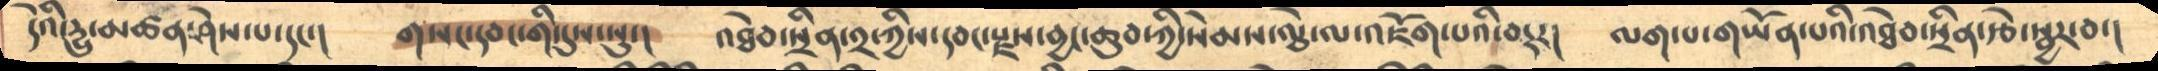དེའི་དྱུ་མཚན་ཤེས་པ་དང་།     གསང་དབང་གི་དུས་སུ་།    འཐེབ་སྲིན་༢་ཀྱིས་དབང་རྫས་བྱང་ཆུབ་ཀྱི་སེམས་ལྕེ་ལ་འཇོག་པའི་བརྡར།   ལག་པ་གཡོན་པའི་འཐེབ་སྲིན་རྩེ་སྦྱར་བ་།
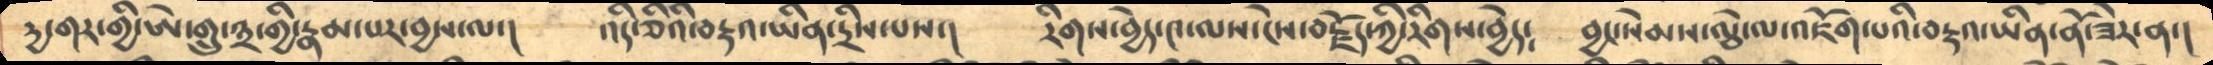དྱ་གར་གྱི་ཨེ་གྲུ་༣་གྱི་རྣམ་པར་བྱས་ལ་།    འདི་ཅིའི་བརྡའ་ཡིན་དྲིས་པས་།   རིགས་བྱེད་༤་ལས་ངེས་བརྗོད་ཀྱི་རིགས་བྱེད༴  བྱང་སེམས་ལྕེ་ལ་འཇོག་པའི་བརྡའ་ཡིན་ནོ་ཟེར་ན་།
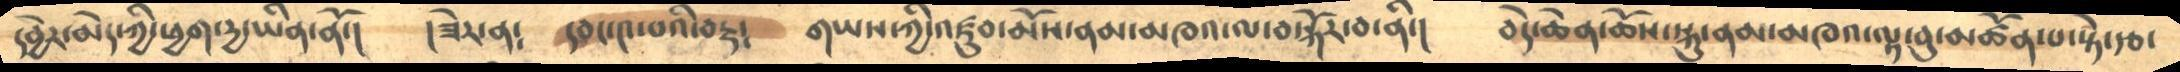དབྱེར་མེད་ཀྱི་ཕྱག་དྱ་ཡིན་ནོ་།    །ཟེར་ན༴   དབང་༤་པའི་བརྡ༴   གཡས་ཀྱི་འཛུབ་མོས་ནམ་མཁའ་ལ་བསྐོར་བ་ནི་།    བདེ་ཆེན་ཆོས་སྐུ་ནམ་མཁའ་ལྟ་བུ་མཚོན་པ་སྟེ་རྩ་
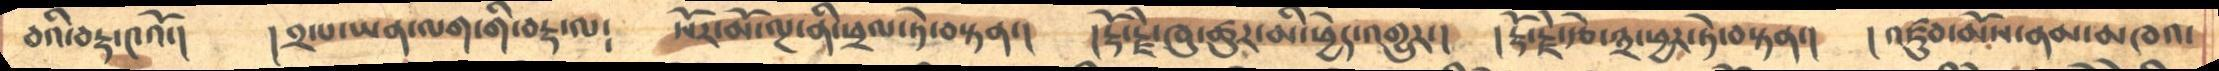བའི་བརྡ་༤འོ་།   །༢་པ་ཡན་ལག་གི་བརྡ་ལ༴   སོར་མོ་ལྔ་ནི་ཕྲལ་ཏེ་བསྟན་།    །རྡོ་རྗེ་ཁུ་ཚུར་མི་ཕྱེད་འགྱུར་།   །རྡོ་རྗེ་རྩེ་༣་ཕྱར་ཏེ་བསྟན་།    །འཛུབ་མོས་ནམ་མཁའ་
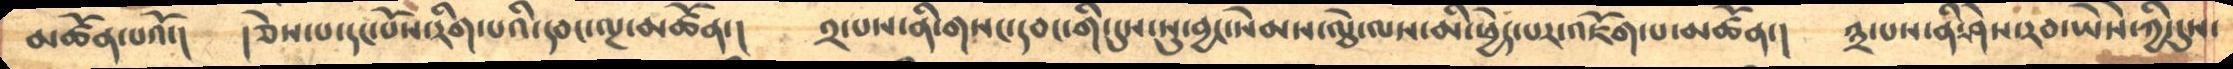མཚོན་པའོ་།   །ཅེས་པ་དང་པོས་རིག་པའི་དབང་ལྔ་མཚོན་།    ༢་པས་ནི་གསང་དབང་གི་དུས་སུ་བྱང་སེམས་ལྕེ་ལས་མི་ཕྱེད་པར་འཇུག་པ་མཚོན་།  ༣་པས་ནི་ཤེས་རབ་ཡཻས་ཀྱི་དུས་
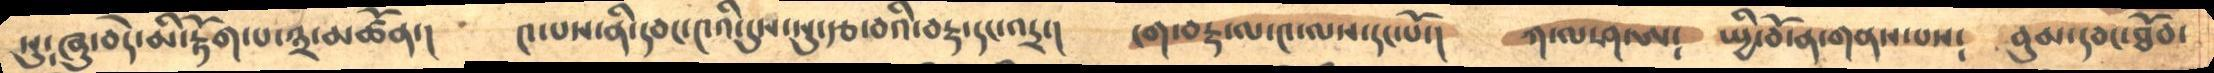སུ་ཞུ་བདེ་མི་རྟོག་པ་༣་མཚོན་།    ༤་པས་ནི་དབང་༤འི་དུས་སུ་རྩ་བའི་བརྡ་དང་འདྲ་།   ངག་བརྡ་ལ་༤་ལས་དང་པོ་།   ཀ་ལ་ཤ་ཨ༴   སྤྱི་བོ་ན་གནས་པས༴   བུམ་དབང་ཐོབ་
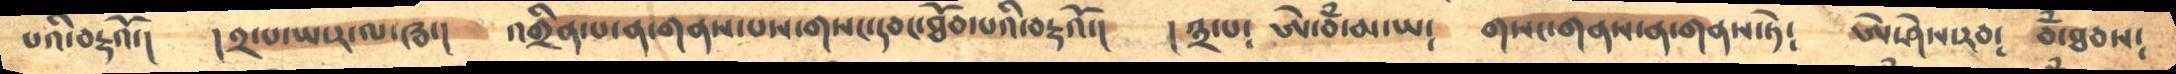པའི་བརྡའོ་།     །༢་པ་ཡ་ར་ལ་ཝ་།   འགྲིན་པ་ན་གནས་པས་གསང་དབང་ཐོབ་པའི་བརྡའོ་།    །༣་པ༴  ཨེ་བཾ་མ་ཡ༴  གསང་གནས་ན་གནས་ཏེ༴   ཨེ་ཤེས་རབ༴  བཾ་ཐབས༴
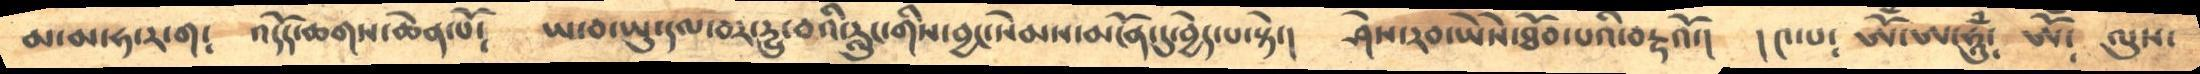མ་མ་ཧ་ར་ག༴   འདོད་ཆགས་ཆེན་པོ༴   ཡ་བ་ཡུ་དལ་བར་དྱུ་བའི་རླུང་གིས་བྱང་སེམས་མངོན་དུ་བྱེད་པ་སྟེ་།   ཤེས་རབ་ཡཻས་ཐོབ་པའི་བརྡའོ་།   །༤་པ༴  ཨོཾ་ཨ་ཧཱུཾ༴  ཨོཾ༴  ལུས་
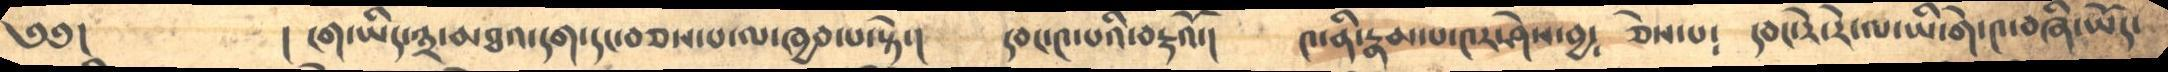༄༅།           ། ངག་ཡིད་༣་མཐའ་དག་དང་བཅས་པ་ལ་ཁྱབ་པ་སྟེ་།    དབང་༤་པའི་བརྡའོ་།   ༤་ནི་རྣམ་པ་༤ར་ཤེས་བྱ༴  ཅེས་པ༴  དབང་རེ་རེ་ལ་ཡི་གེ་༤་བཞི་ཡོད་
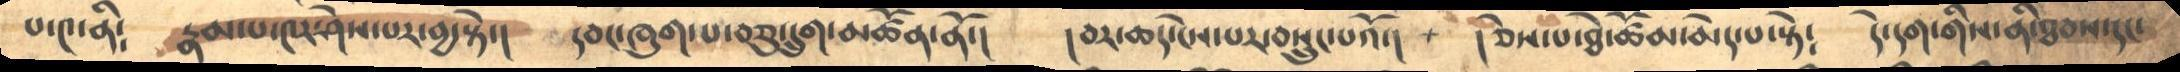པ་༤་ནི༴    རྣམ་པ་༤ར་ཤེས་པར་བྱ་སྟེ་།   དབང་ཁུག་པ་བཅུ་དྲུག་མཚོན་ནོ་།  །བར་ཆད་ངེས་པར་བསྲུང་པའོ་།   །ཅེས་པ་ཐེ་ཚོམ་མེད་པ་སྟེ༴  དེ་དག་གིས་ནི་ཐབས་དང་
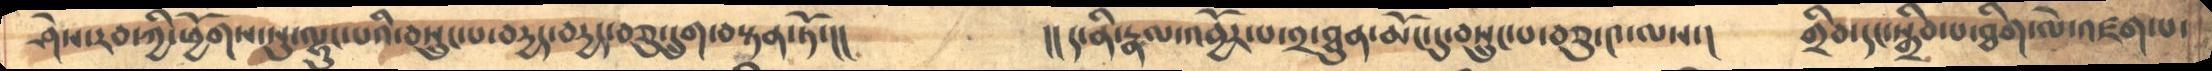ཤེས་རབ་ཀྱི་ཕྱོགས་སུ་ལྷུང་པའི་བསྲུང་པ་བདྱད་བདྱད་བཅུ་དྲུག་བསྟན་ཏོ་།།            །།ད་ནི་རྣལ་འབྱོར་པ་༢་ཐུན་མོང་དུ་བསྲུང་པ་བཅུ་༤་ལས་།    གྲིབ་དང་སྒྲིབ་པ་ཐིག་ལེ་འཛག་པ་
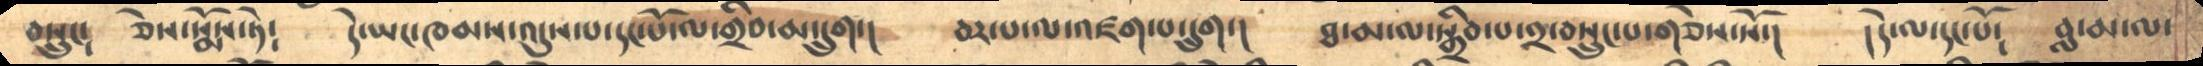བསྲུང༴   ཅེས་སྨོས་ཏེ༴    དེ་ཡང་ཁམས་འདུས་པ་དང་པོ་ལ་གྲིབ་མ་དྲུག་།    བར་པ་ལ་འཛགས་པ་དྲུག་།   ཐ་མ་ལ་སྒྲིབ་པ་༢་བསྲུང་པ་གཅེས་སོ་།    །དེ་ལ་དང་པོ༴    བླ་མ་ལ་
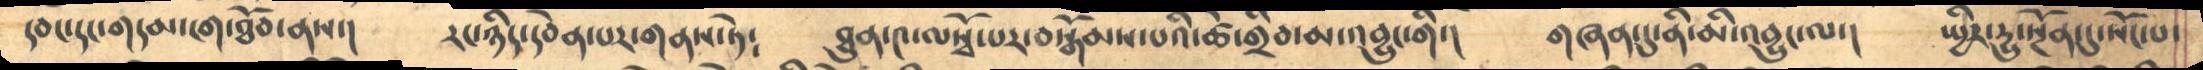དབང་དང་གདམས་ངག་ཐོབ་ནས་།     རང་ཉིད་དབེན་པར་གནས་ཏེ༴    ཐུན་༤་ལསྭོ་པར་བསྒོམས་པའི་ཚེ་གྲིབ་མ་འབྱུང་གི་།       གཞན་དུ་ནི་མི་འབྱུང་ལ་།     སྤྱིར་དྱུ་སྔོན་དུ་སོང་པ་
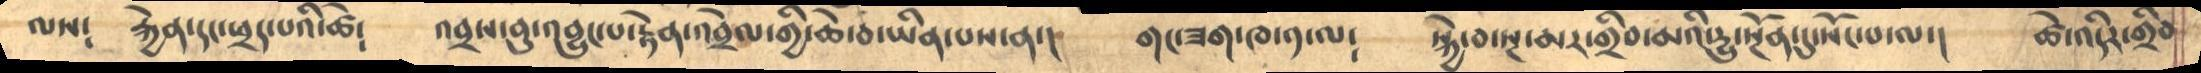ལས༴    རྐྱེན་དང་ཕྲད་པའི་ཚེ༴    འབྲས་བུ་འབྱུང་པ་རྟེན་འབྲེལ་གྱི་ཆེ་བ་ཡིན་པས་ན་།     གང་ཟག་ཁ་༡་ལ༴      སྐྱེ་བ་སྔ་མར་གྲིབ་མའི་དྱུ་སྔོན་དུ་སོང་པ་ལ་།      ཚེ་འདིར་གྲིབ
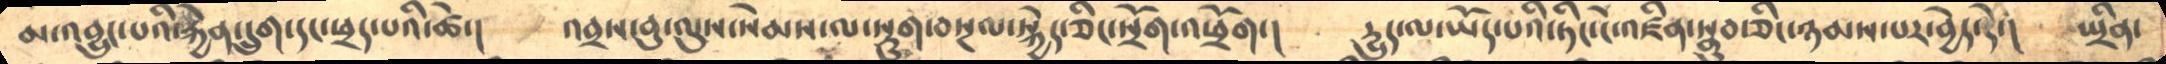མ་འབྱུང་པའི་རྐྱེན་དྲུག་དང་ཕྲད་པའི་ཚེ་།    འབྲས་བུ་ལུས་སེམས་ལ་སྡུག་བསྔལ་སྐྱེད་ཅིང་སྲོག་འཕྲོག་།    དྱུད་ལ་ཡོད་པའི་ཏིང་ངེ་འཛིན་སྣུབ་ཅིང་ཉམས་པར་བྱེད་དེ་།   སྤྲིན་
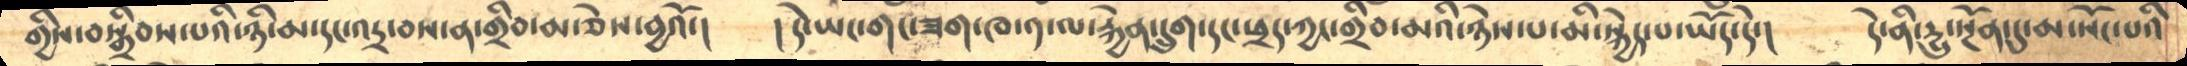གྱིས་བསྒྲིབས་པའི་ཉི་མ་དང་འདྲ་བས་ན་གྲིབ་མ་ཅེས་བྱའོ་།    ། དེ་ཡང་གང་ཟག་ཁ་༡་ལ་རྐྱེན་དདྲུག་དང་ཕྲད་ཀྱང་གྲིབ་མའི་ཉེས་པ་མི་སྐྱེད་པ་ཡོད་དེ་།     དེ་ནི་དྱུ་སྔོན་དུ་མ་སོང་པའི
